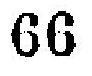66
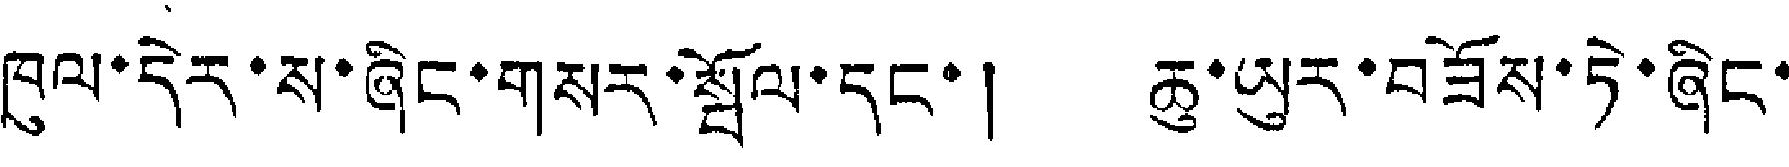ཁུལ་དེར་ས་ཞིང་གསར་སྦོལ་དང་། ཆུ་ཡུར་བཟོས་ཏེ་ཞིང་
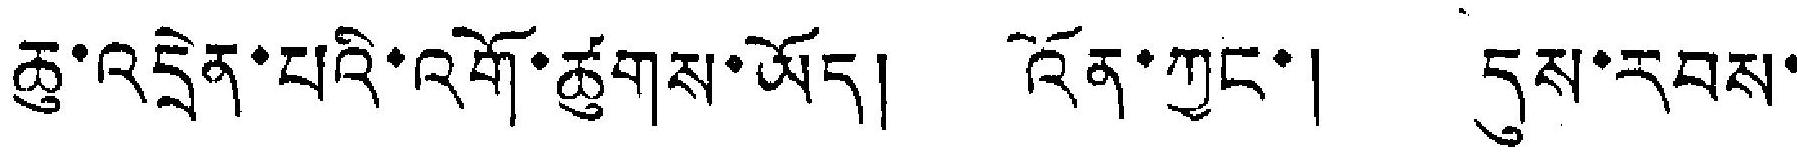ཆུ་འདྲེན་པའི་འགོ་ཚུགས་ཡོད། འོན་ཀྱང་། དུས་རབས་
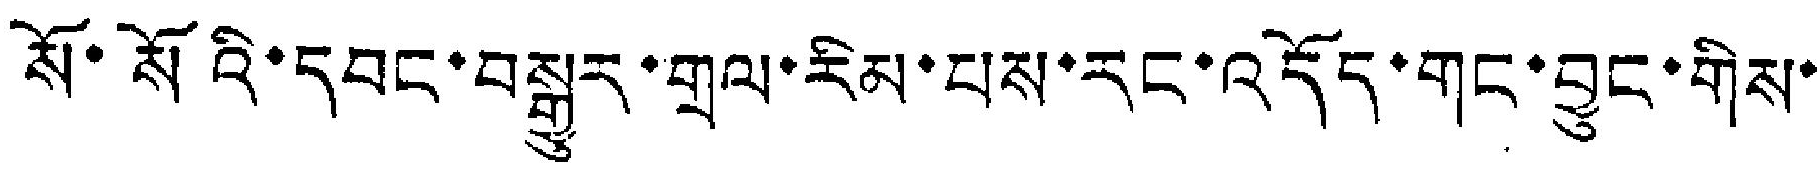སོ་སོའི་དབང་བསྒྱུར་གྲལ་རིམ་པས་རང་འདོད་གང་བྱུང་གིས་
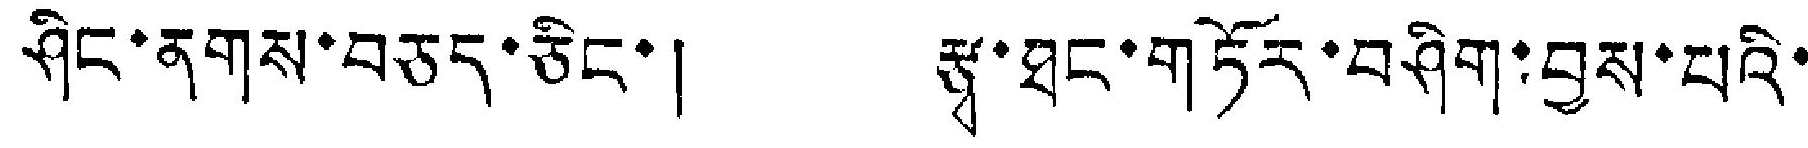ཤིང་ནགས་བཅད་ཅིང་། རྩྭ་ཐང་གཏོར་བཤིག་བྱས་པའི་
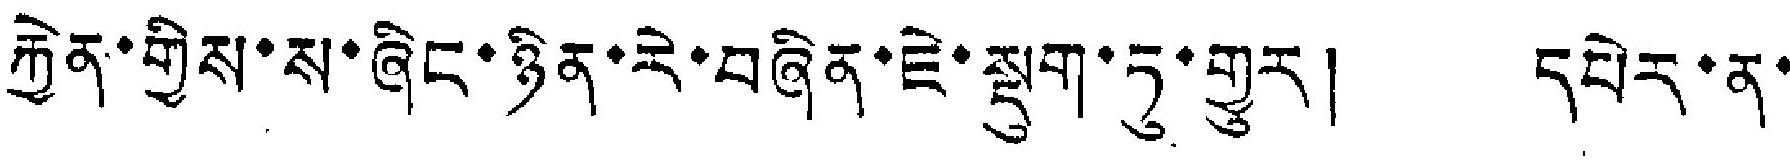རྐྱེན་གྱིས་ས་ཞིང་ཉིན་རེ་བཞིན་ཇེ་སྡུག་ཏུ་གྱུར། དཔེར་ན་
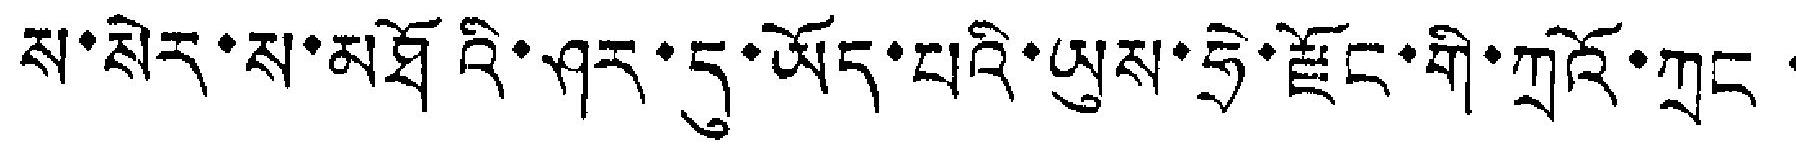ས་སེར་ས་མཐོའི་ཤར་དུ་ཡོད་པའི་ཡུས་ཧྲེ་རྫོང་གི་ཀྲའོ་ཀྲང་
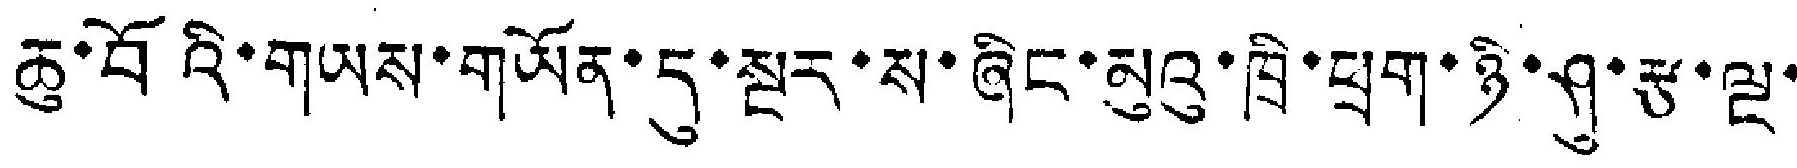ཆུ་བོའི་གཡས་གཡོན་དུ་སྔར་ས་ཞིང་མུའུ་ཁྲི་ཕྲག་ཉི་ཤུ་རྩ་ལྔ་
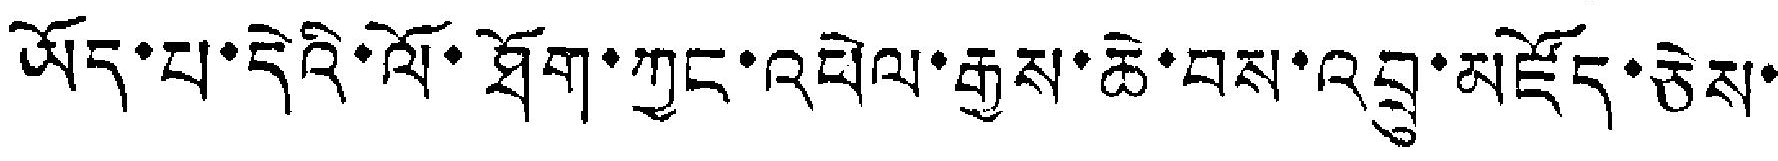ཡོད་པ་དེའི་ལོ་ཐོག་ཀྱང་འཕེལ་རྒྱས་ཆེ་བས་འབྲུ་མཛོད་ཅེས་
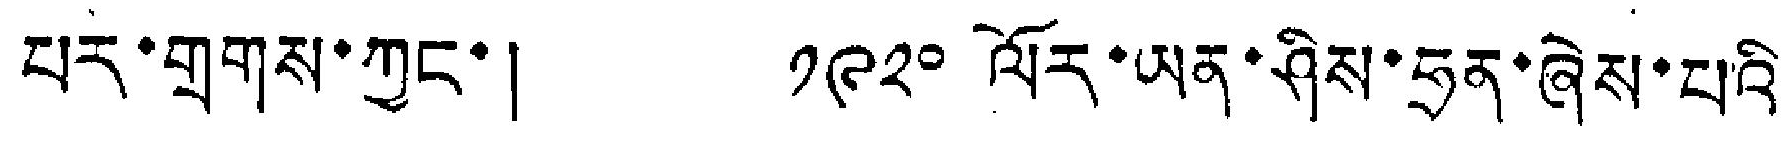པར་གྲགས་ཀྱང་། ༡༩༢༠ ལོར་ཡན་ཤིས་ཧྲན་ཞེས་པའི་
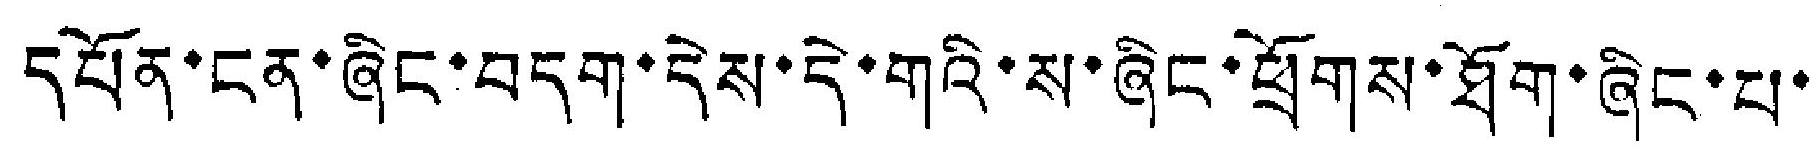དཔོན་ངན་ཞིང་བདག་དེས་དེ་གའི་ས་ཞིང་ཕྲོགས་ཐོག་ཞིང་པ་
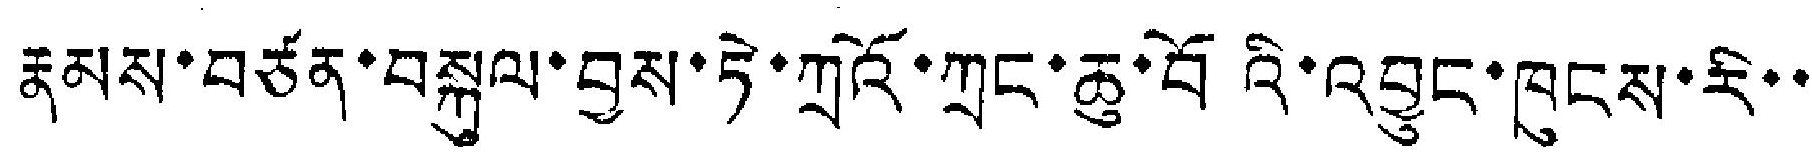རྣམས་བཙན་བསྐུལ་བྱས་ཏེ་ཀྲའོ་ཀྲང་ཆུ་བོའི་འབྱུང་ཁུངས་རི་་
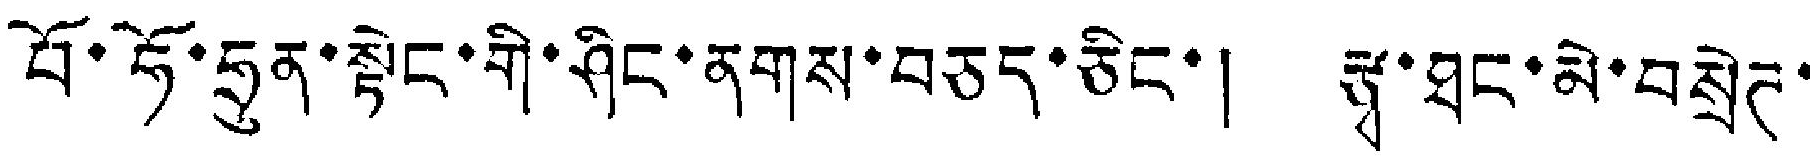བོ་ཧོ་ཧྲུན་སྟེང་གི་ཤིང་ནགས་བཅད་ཅིང་། རྩྭ་ཐང་མེ་བསྲེཊ་
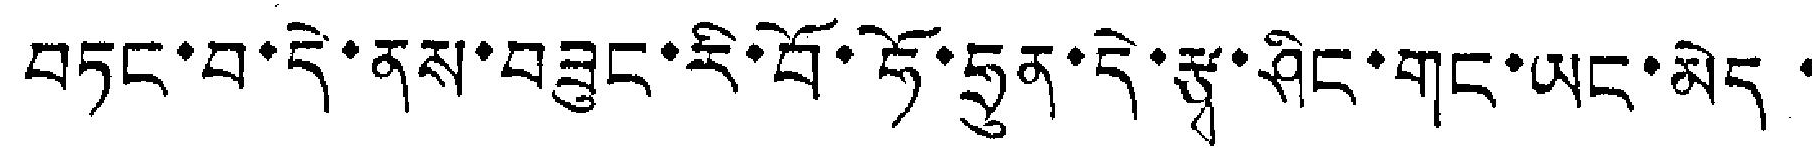བཏང་བ་དེ་ནས་བཟུང་རི་བོ་ཧོ་ཧྲུན་དེ་རྩྭ་ཤིང་གང་ཡང་མེད་
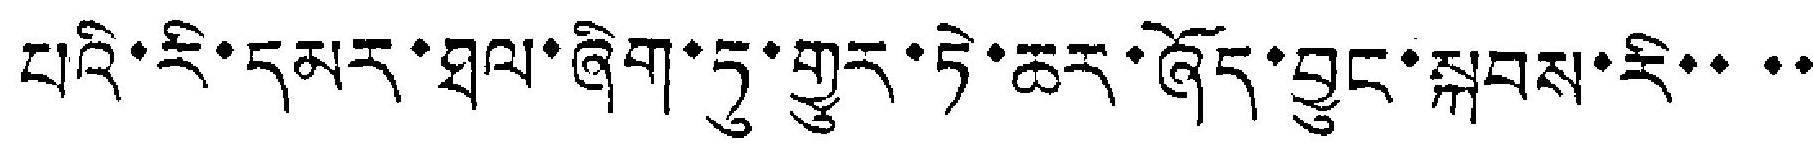པའི་རི་དམར་ཐལ་ཞིག་ཏུ་གྱུར་ཏེ་ཆར་ཞོད་བྱུང་སྐབས་རི་་་་
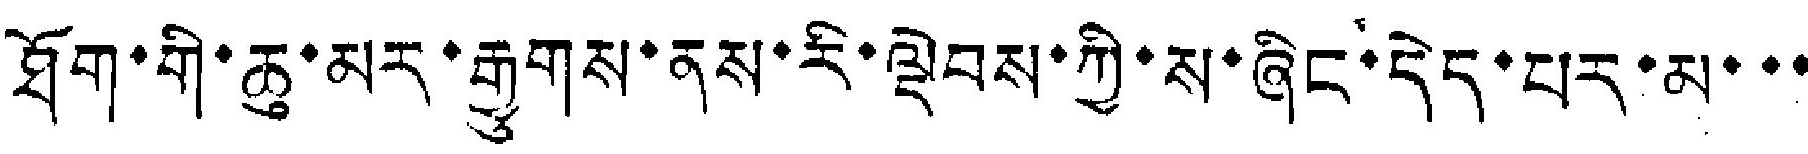ཐོག་གི་ཆུ་མར་རྒྱུགས་ནས་རི་ལྡེབས་ཀྱི་ས་ཞིང་དེད་པར་མ་་་
